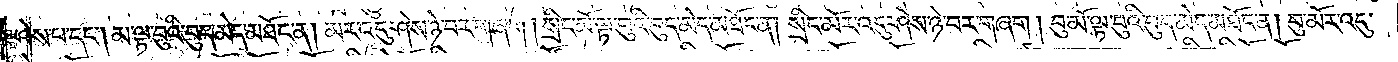ཤེས་པ་དང༌། མ་ལྟ་བུའི་བུད་མེད་མཐོང་ན། མར་འདུ་ཤེས་ཉེ་བར་གཞག། སྲིང་མོ་ལྟ་བུའི་བུད་མེད་མཐོང་ན། སྲིང་མོར་འདུ་ཤེས་ཉེ་བར་གཞག། བུ་མོ་ལྟ་བུའི་བུད་མེད་མཐོང་ན། བུ་མོར་འདུ་
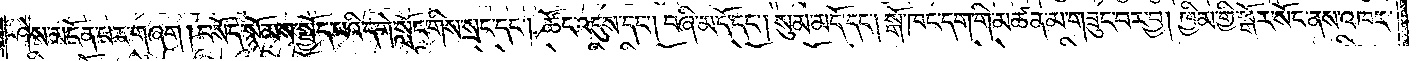ཤེས་མངོན་པར་གཞག །བསོད་སྙོམས་སྤྱོད་པའི་དགེ་སློང་གིས་སྲང་དང༌། ཚོང་འདུས་དང༌། བཞི་མདོ་དང༌། སུམ་མདོ་དང༌། སྒོ་ཁང་དག་གི་མཚན་མ་གཟུང་བར་བྱ། ཁྱིམ་གྱི་སྒོར་སོང་ནས་འཁར་
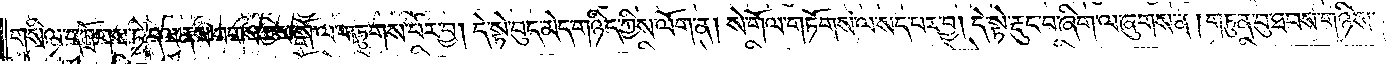གསིལ་དཀྲོགས་ཏེ་དལ་ནས་བགས་ཀྱིས་སྒོ་ལ་གཏུགས་པར་བྱ། དེ་སྟེ་བུད་མེད་གཉིད་ཀྱིས་ལོག་ན། སེ་གོལ་གཏོགས་ལ་སད་པར་བྱ། དེ་སྟེ་རྡུང་བ་ཞིག་ལ་ཞུགས་ན། གཏུན་བུ་ཐབས་གཉིས་
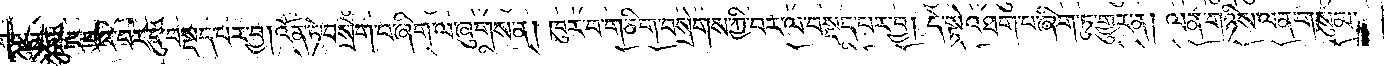གསུམ་རྡུང་བའི་བར་དུ་བསྡད་པར་བྱ། འོན་ཏེ་བསྲེག་བ་ཞིག་ལ་ཞུགས་ན། ཁུར་བ་གཅིག་བསྲེགས་ཀྱི་བར་ལ་བསྡད་པར་བྱ། དེ་སྟེ་འཐག་པ་ཞིག་ཏུ་གྱུར་ན། ལན་གཉིས་ལན་གསུམ་
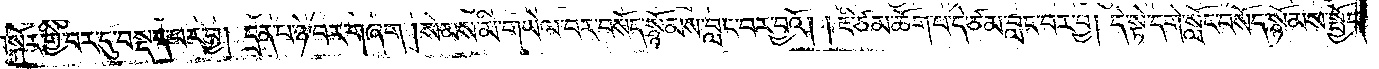བསྐོར་གྱི་བར་དུ་བསྡད་པར་བྱ། དྲན་པ་ཉེ་བར་གཞག །སེམས་མི་གཡེལ་བར་བསོད་སྙོམས་བླང་བར་བྱའོ། །ཇི་ཙམ་ཆོག་པ་དེ་ཙམ་བླང་བར་བྱ། དེ་སྟེ་དགེ་སློང་བསོད་སྙོམས་སྤྱོད་
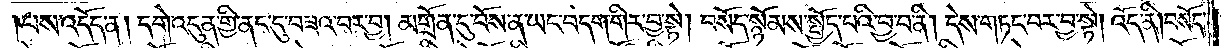པས་འདོད་ན། དགེ་འདུན་གྱི་ནང་དུ་བཟའ་བར་བྱ། མགྲོན་དུ་བོས་ན་ཡང་བདག་གིར་བྱ་སྟེ། བསོད་སྙོམས་སྤྱོད་པའི་བྱ་བ་ནི། དེས་གཏང་བར་བྱ་སྟེ། འོད་ནི། བསོད་
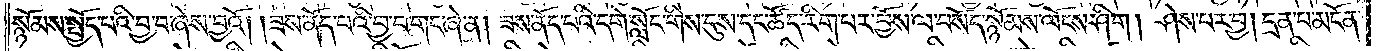སྙོམས་སྤྱོད་པའི་བྱ་བ་ཞེས་བྱའོ། །ཟས་ནོད་པའི་བྱ་བ་གང་ཞེ་ན། ཟས་ནོད་པའི་དགེ་སློང་གིས་དུས་དང་ཚོད་རིག་པར་བྱོས་ལ་བསོད་སྙོམས་ལོངས་ཤིག། ཤེས་པར་བྱ། དྲན་པ་མངོན་
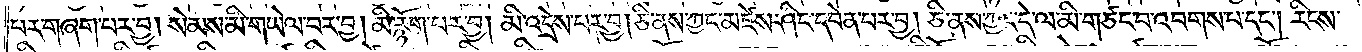པར་གཞག་པར་བྱ། སེམས་མི་གཡེལ་བར་བྱ། མི་རྙོག་པར་བྱ། མི་འདྲེས་པར་བྱ། ཅི་ནས་ཀྱང་མཛེས་ཤིང་དབེན་པར་བྱ། ཅི་ནས་ཀྱང་དེ་ལ་མི་གཙང་བ་འབགས་པ་དང༌། རིངས་
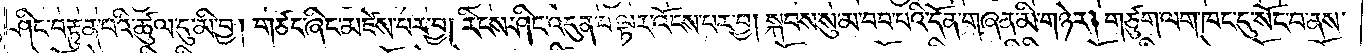ཤིང་བརྟུན་པའི་ཚུལ་དུ་མི་བྱ། གཙང་ཞིང་མཛེས་པར་བྱ། རིངས་ཤིང་འདུན་པ་ལྟར་འོངས་པར་བྱ། སྐབས་སུ་མ་བབ་པའི་དོན་གཞན་མི་གཉེར། གཙུག་ལག་ཁང་དུ་སོང་བ་ནས་
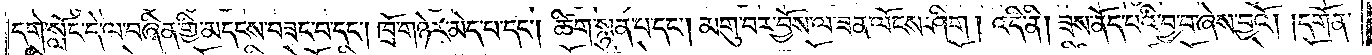དགེ་སློང་དེ་ལ་བཞིན་གྱི་མདངས་བཟང་བ་དང༌། ཁྲོ་གཉེར་མེད་པ་དང༌། ཚིག་སྙན་པ་དང༌། མགུ་བར་བྱོས་ལ་ཟན་ལོངས་ཤིག། འདི་ནི། ཟས་ནོད་པའི་བྱ་བ་ཞེས་བྱའོ། །དགོན་
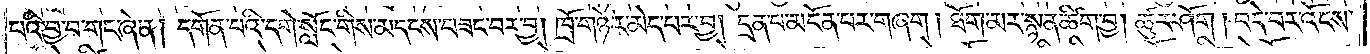པའི་བྱ་བ་གང་ཞེ་ན། དགོན་པའི་དགེ་སློང་གིས་མདངས་བཟང་བར་བྱ། ཁྲོ་གཉེར་མེད་པར་བྱ། དྲན་པ་མངོན་པར་གཞག །ཐོག་མར་སྙན་ཚིག་བྱ། ཚུར་ཤོག། བདེ་བར་འོངས་
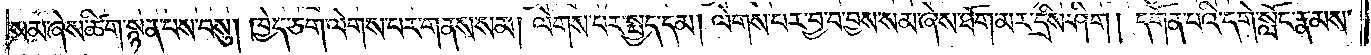སམ་ཞེས་ཚིག་སྙན་པས་བསུ། ཁྱེད་ཅག་ལེགས་པར་གནས་སམ། ལེགས་པར་སྤྱད་དམ། ལེགས་པར་བྱ་བ་བྱས་སམ་ཞེས་ཐོག་མར་དྲིས་ཤིག། དགོན་པའི་དགེ་སློང་རྣམས་
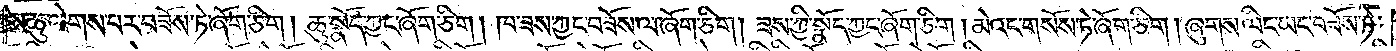ཀྱིས་ཆུ་ལེགས་པར་བཟོས་ཏེ་ཞོག་ཅིག། ཆུ་སྣོད་ཀྱང་ཞོག་ཅིག། ཁ་ཟས་ཀྱང་བཟོས་ལ་ཞོག་ཅིག། ཟས་ཀྱི་སྣོད་ཀྱང་ཞོག་ཅིག །མེའང་གསོས་ཏེ་ཞོག་ཅིག །ཞུགས་ལིང་ཡང་བཟོས་ཏེ་
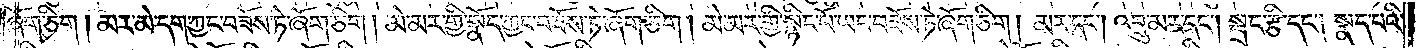ཞོག་ཅིག །མར་མེ་དག་ཀྱང་བཟོས་ཏེ་ཞོག་ཅིག །མེ་མར་གྱི་སྣོད་ཀྱང་བཟོས་ཏེ་ཞོག་ཅིག། མེ་མར་གྱི་སྙིང་པོ་ཡང་བཟོས་ཏེ་ཞོག་ཅིག། མར་དང༌། འབྲུ་མར་དང༌། སྦྲང་རྩི་དང༌། སྣད་པའི་
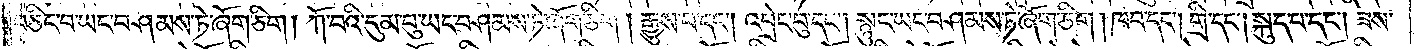བཅིང་བ་ཡང་བཤམས་ཏེ་ཞོག་ཅིག། ཀོ་བའི་དུམ་བུ་ཡང་བཤམས་ཏེ་ཞོག་ཅིག། རྒྱུས་པ་དང༌། འབྲེང་བུ་དང༌། སྙུང་ཡང་བཤམས་ཏེ་ཞོག་ཅིག། ཁབ་དང༌། གྲི་དང༌། སྐུད་པ་དང༌། ཟས་
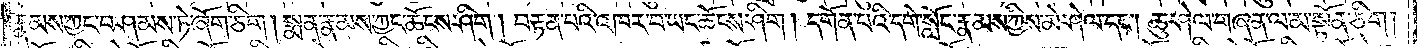རྣམས་ཀྱང་བཤམས་ཏེ་ཞོག་ཅིག། སྨན་རྣམས་ཀྱང་ཆོངས་ཤིག། བརྟན་པའི་འཁར་བ་ཡང་ཆོངས་ཤིག། དགོན་པའི་དགེ་སློང་རྣམས་ཀྱིས་མེ་ཤེལ་དང༌། ཆུ་ཤེལ་གཞན་ལ་མ་སྟོན་ཅིག།
